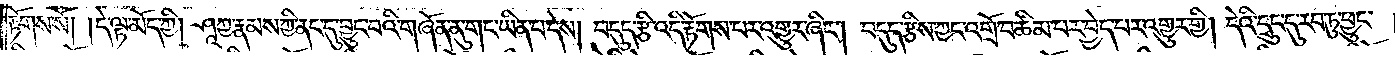རྟོགས་སོ། །དེ་ལྟ་མོད་ཀྱི། ཤཱཀྱ་རྣམས་ཀྱི་ནང་དུ་བྱུང་བའི་གཞོན་ནུ་གང་ཡིན་པ་དེས། བདུད་རྩི་འདི་རྟོགས་པར་འགྱུར་ཞིང༌། བདུད་རྩིས་ཀྱང་འགྲོ་བ་ཚིམ་པར་བྱེད་པར་འགྱུར་གྱི། དེའི་དྲུང་དུ་རབ་ཏུ་ཕྱུང་
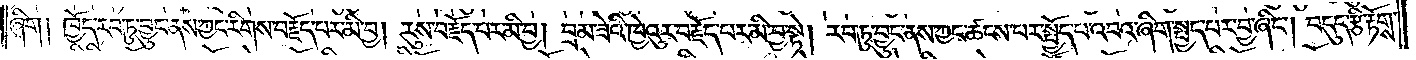ཞིག །ཁྱོད་རབ་ཏུ་བྱུང་ནས་ཀྱང་རིགས་བརྗོད་པར་མི་བྱ། རུས་བརྗོད་པར་མི་བྱ། བྲམ་ཟེའི་ཁྱེའུར་བརྗོད་པར་མི་བྱ་སྟེ། རབ་ཏུ་བྱུང་ནས་ཀྱང་ཚངས་པར་སྤྱོད་པ་འབའ་ཞིག་སྤྱད་པར་བྱ་ཞིང༌། བདུད་རྩི་རྟོགས་
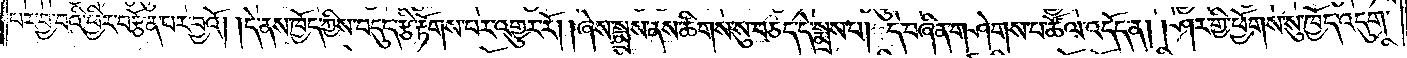པར་བྱ་བའི་ཕྱིར་བརྩོན་པར་བྱའོ། །དེ་ནས་ཁྱོད་ཀྱིས་བདུད་རྩི་རྟོགས་པར་འགྱུར་རོ། །ཞེས་སྨྲས་ནས་ཚིགས་སུ་བཅད་དེ་སྨྲས་པ། དེ་བཞིན་གཤེགས་པ་ཚོལ་འདོད་ན། །ཤར་གྱི་ཕྱོགས་སུ་ཁྱོད་འདུག་
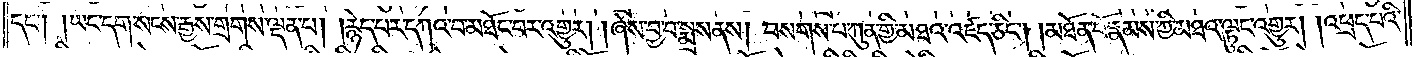དང༌། །ཡང་དག་སངས་རྒྱས་གྲགས་ལྡན་པ། །རྙེད་པར་དཀའ་བ་མཐོང་བར་འགྱུར། །ཞེས་བྱ་བ་སྨྲས་ནས། བསགས་པ་ཀུན་གྱི་མཐའ་འཛད་ཅིང༌། །མཐོན་པོ་རྣམས་ཀྱི་མཐའ་ལྟུང་འགྱུར། །འཕྲད་པའི་
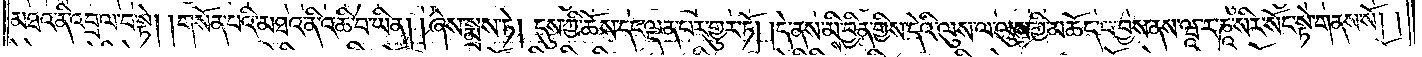མཐའ་ནི་འབྲལ་བ་སྟེ། །གསོན་པའི་མཐའ་ནི་འཆི་བ་ཡིན། །ཞེས་སྨྲས་ཏེ། དུས་ཀྱི་ཆོས་དང་ལྡན་པར་གྱུར་ཏོ། །དེ་ནས་མིས་བྱིན་གྱིས་དེའི་ལུས་ལ་ལུས་ཀྱི་མཆོད་པ་བྱས་ནས་ཝཱ་ར་ཎཱ་སིར་སོང་སྟེ་གནས་སོ། །
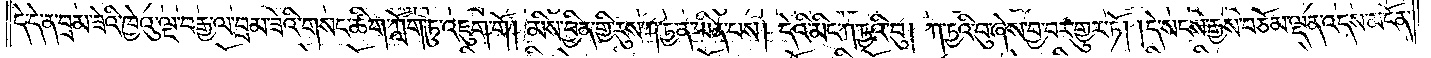དེ་དེ་ན་བྲམ་ཟེའི་ཁྱེའུ་ལྔ་བརྒྱ་ལ་བྲམ་ཟེའི་གསང་ཚིག་ཀློག་ཏུ་འཇུག་གོ། མིས་བྱིན་གྱི་རུས་ཀ་ཏྱ་ན་ཡིན་པས། དེའི་མིང་ཀ་ཏྱའི་བུ། ཀ་ཏྱའི་བུ་ཞེས་བྱ་བར་གྱུར་ཏོ། །དེ་སངས་རྒྱས་བཅོམ་ལྡན་འདས་མངོན་
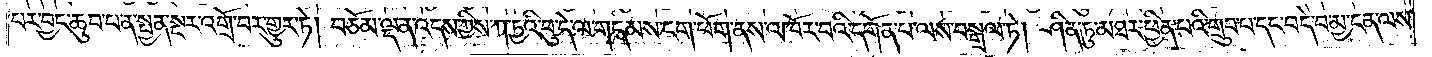པར་བྱང་ཆུབ་པ་ན་སྤྱན་སྔར་འགྲོ་བར་གྱུར་ཏེ། བཅོམ་ལྡན་འདས་ཀྱིས་ཀ་ཏྱའི་བུ་དེ་ལ་གདམས་ངག་ཕོག་ནས་འཁོར་བའི་དགོན་པ་ལས་བསྒྲལ་ཏེ། ཤིན་ཏུ་མཐར་ཕྱིན་པའི་གྲུབ་པ་དང་བདེ་བ་མྱ་ངན་ལས་
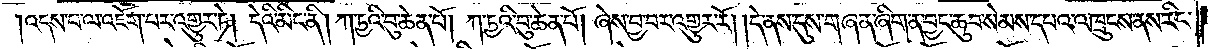།འདས་པ་ལ་འཇོག་པར་འགྱུར་ཏེ། དེའི་མིང་ནི། ཀ་ཏྱའི་བུ་ཆེན་པོ། ཀ་ཏྱའི་བུ་ཆེན་པོ། ཞེས་བྱ་བར་འགྱུར་རོ། །དེ་ནས་དུས་གཞན་ཞིག་ན་བྱང་ཆུབ་སེམས་དཔའ་འཁྲུངས་ནས་རིང་
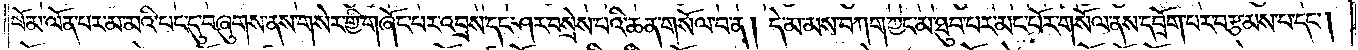པོ་མ་ལོན་པར་མ་མའི་བང་དུ་བཞུགས་ནས་གསེར་གྱི་གཞོང་པར་འབྲས་དང་ཤར་བསྲེས་པའི་ཆན་གསོལ་བ་ན། དེ་མ་མས་བཀག་ཀྱང་མ་ཐུབ་པར་མང་པོར་གསོལ་ནས་དབྲོག་པར་བརྩམས་པ་དང༌།
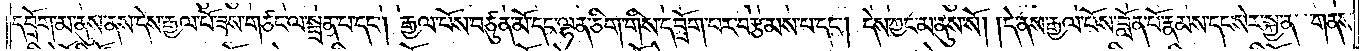དབྲོག་མ་ནུས་ནས་དེས་རྒྱལ་པོ་ཟས་གཙང་ལ་སྦྲན་པ་དང༌། རྒྱལ་པོས་བཙུན་མོ་དང་ལྷན་ཅིག་གིས་དབྲོག་པར་བརྩམས་པ་དང༌། དེས་ཀྱང་མ་ནུས་སོ། །དེ་ནས་རྒྱལ་པོས་བློན་པོ་རྣམས་དང་སེར་སྐྱ་ན་གནས་
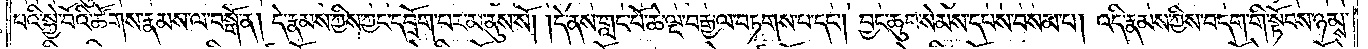པའི་སྐྱེ་བོའི་ཚོགས་རྣམས་ལ་བསྒོ་ན། དེ་རྣམས་ཀྱིས་ཀྱང་དབྲོག་པར་མ་ནུས་སོ། །དེ་ནས་གླང་པོ་ཆེ་ལྔ་བརྒྱ་ལ་བཏགས་པ་དང༌། བྱང་ཆུབ་སེམས་དཔས་བསམ་པ། འདི་རྣམས་ཀྱིས་བདག་གི་སྟོབས་ཉམས་
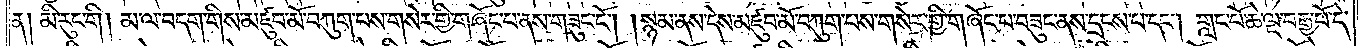ན། མི་རུང་གི། མ་ལ་བདག་གིས་མཛུབ་མོ་བཀུག་པས་གསེར་གྱི་གཞོང་པ་ནས་གཟུང་ངོ༌། །སྙམ་ནས་དེས་མཛུབ་མོ་བཀུག་པས་གསེར་གྱི་གཞོང་པ་བཟུང་ནས་དྲངས་པ་དང༌། གླང་པོ་ཆེ་ལྔ་བརྒྱ་པོ་དེ་
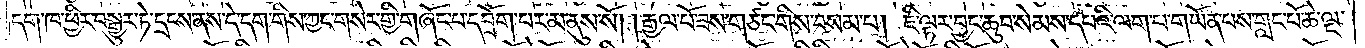དག་ཁ་ཕྱིར་བསྒྱུར་ཏེ་དྲངས་ནས་དེ་དག་གིས་ཀྱང་གསེར་གྱི་གཞོང་པ་དབྲོག་པར་མ་ནུས་སོ། །རྒྱལ་པོ་ཟས་གཙང་གིས་བསམ་པ། ཇི་ལྟར་བྱང་ཆུབ་སེམས་དཔའི་ལག་པ་གཡོན་པས་གླང་པོ་ཆེ་ལྔ་
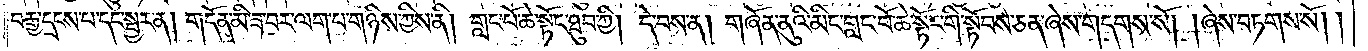བརྒྱ་དྲངས་པ་དང་སྦྱར་ན། གདོན་མི་ཟ་བར་ལག་པ་གཉིས་ཀྱིས་ནི། གླང་པོ་ཆེ་སྟོང་ཐུབ་ཀྱི། དེ་བས་ན། གཞོན་ནུའི་མིང་གླང་པོ་ཆེ་སྟོང་གི་སྟོབས་ཅན་ཞེས་གདགས་སོ། །ཞེས་བཏགས་སོ། །
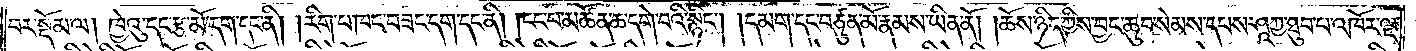བར་སྡོམ་ལ། ཁྱེའུ་དང་རྩ་མོ་དག་དང་ནི། །རིག་པ་ཁང་བཟང་དག་དང་ནི། །ངང་པ་མཚོན་ཆ་དགེ་བའི་སྙིང༌། །དམག་དང་བཙུན་མོ་རྣམས་ཡིན་ནོ། །ཆོས་ཉིད་ཀྱིས་བྱང་ཆུབ་སེམས་དཔས་ཤཱཀྱ་ཐུབ་པ་འཁོར་ལྔ་
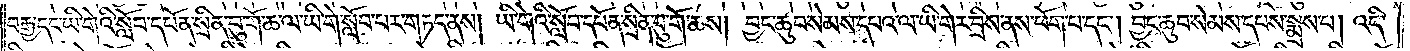བརྒྱ་དང་ཡི་གེའི་སློབ་དཔོན་སྲིན་བུ་གོ་ཆ་ལ་ཡི་གེ་སློབ་པར་གཏད་ནས། ཡི་གེའི་སློབ་དཔོན་སྲིན་བུ་གོ་ཆས། བྱང་ཆུབ་སེམས་དཔའ་ལ་ཡི་གེར་བྲིས་ནས་ཕོག་པ་དང༌། བྱང་ཆུབ་སེམས་དཔས་སྨྲས་པ། འདི་
